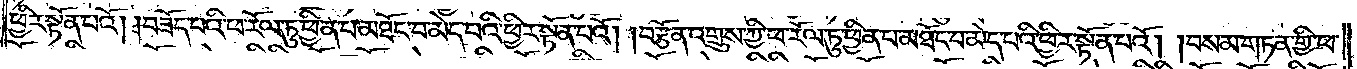ཕྱིར་སྟོན་པའོ། །བཟོད་པའི་ཕ་རོལ་ཏུ་ཕྱིན་པ་མཐོང་བ་མེད་པའི་ཕྱིར་སྟོན་པའོ། །བརྩོན་འགྲུས་ཀྱི་ཕ་རོལ་ཏུ་ཕྱིན་པ་མཐོང་བ་མེད་པའི་ཕྱིར་སྟོན་པའོ། །བསམ་གཏན་གྱི་ཕ་
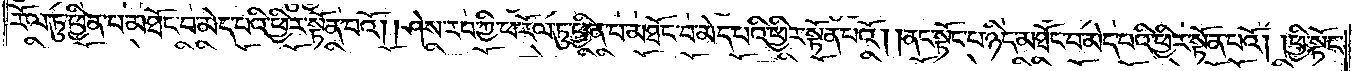རོལ་ཏུ་ཕྱིན་པ་མཐོང་བ་མེད་པའི་ཕྱིར་སྟོན་པའོ། །ཤེས་རབ་ཀྱི་ཕ་རོལ་ཏུ་ཕྱིན་པ་མཐོང་བ་མེད་པའི་ཕྱིར་སྟོན་པའོ། །ནང་སྟོང་པ་ཉིད་མཐོང་བ་མེད་པའི་ཕྱིར་སྟོན་པའོ། །ཕྱི་སྟོང་
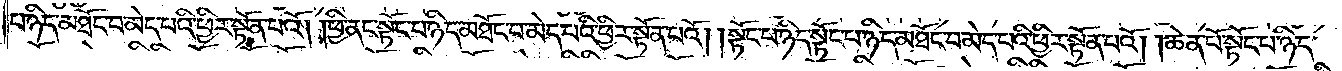པ་ཉིད་མཐོང་བ་མེད་པའི་ཕྱིར་སྟོན་པའོ། །ཕྱི་ནང་སྟོང་པ་ཉིད་མཐོང་བ་མེད་པའི་ཕྱིར་སྟོན་པའོ། །སྟོང་པ་ཉིད་སྟོང་པ་ཉིད་མཐོང་བ་མེད་པའི་ཕྱིར་སྟོན་པའོ། །ཆེན་པོ་སྟོང་པ་ཉིད་
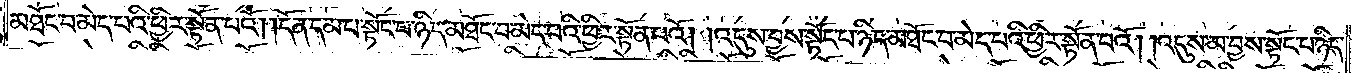མཐོང་བ་མེད་པའི་ཕྱིར་སྟོན་པའོ། །དོན་དམ་པ་སྟོང་པ་ཉིད་མཐོང་བ་མེད་པའི་ཕྱིར་སྟོན་པའོ། །འདུས་བྱས་སྟོང་པ་ཉིད་མཐོང་བ་མེད་པའི་ཕྱིར་སྟོན་པའོ། །འདུས་མ་བྱས་སྟོང་པ་ཉིད་
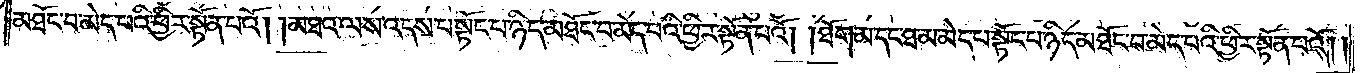མཐོང་བ་མེད་པའི་ཕྱིར་སྟོན་པའོ། །མཐའ་ལས་འདས་པ་སྟོང་པ་ཉིད་མཐོང་བ་མེད་པའི་ཕྱིར་སྟོན་པའོ། །ཐོག་མ་དང་ཐ་མ་མེད་པ་སྟོང་པ་ཉིད་མཐོང་བ་མེད་པའི་ཕྱིར་སྟོན་པའོ། །
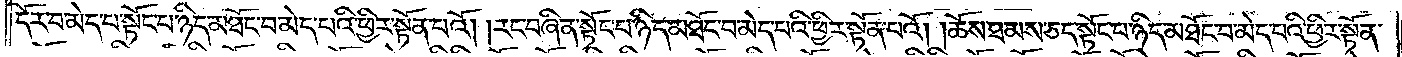དོར་བ་མེད་པ་སྟོང་པ་ཉིད་མཐོང་བ་མེད་པའི་ཕྱིར་སྟོན་པའོ། །རང་བཞིན་སྟོང་པ་ཉིད་མཐོང་བ་མེད་པའི་ཕྱིར་སྟོན་པའོ། །ཆོས་ཐམས་ཅད་སྟོང་པ་ཉིད་མཐོང་བ་མེད་པའི་ཕྱིར་སྟོན་
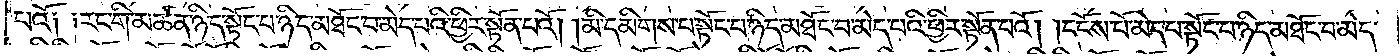པའོ༑ ༑རང་གི་མཚན་ཉིད་སྟོང་པ་ཉིད་མཐོང་བ་མེད་པའི་ཕྱིར་སྟོན་པའོ། །མི་དམིགས་པ་སྟོང་པ་ཉིད་མཐོང་བ་མེད་པའི་ཕྱིར་སྟོན་པའོ། །དངོས་པོ་མེད་པ་སྟོང་པ་ཉིད་མཐོང་བ་མེད་
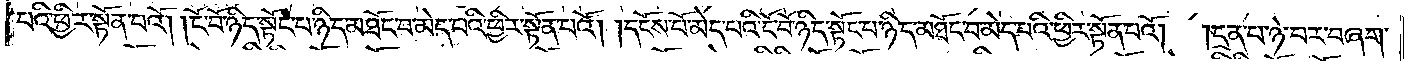པའི་ཕྱིར་སྟོན་པའོ། །ངོ་བོ་ཉིད་སྟོང་པ་ཉིད་མཐོང་བ་མེད་པའི་ཕྱིར་སྟོན་པའོ། །དངོས་པོ་མེད་པའི་ངོ་བོ་ཉིད་སྟོང་པ་ཉིད་མཐོང་བ་མེད་པའི་ཕྱིར་སྟོན་པའོ། །དྲན་པ་ཉེ་བར་བཞག་
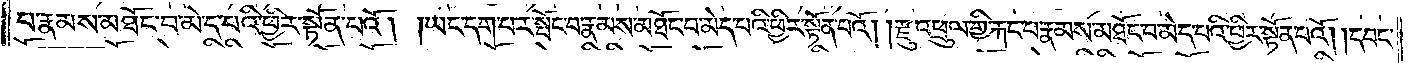པ་རྣམས་མཐོང་བ་མེད་པའི་ཕྱིར་སྟོན་པའོ། །ཡང་དག་པར་སྤོང་བ་རྣམས་མཐོང་བ་མེད་པའི་ཕྱིར་སྟོན་པའོ། །རྫུ་འཕྲུལ་གྱི་རྐང་པ་རྣམས་མཐོང་བ་མེད་པའི་ཕྱིར་སྟོན་པའོ། །དབང་
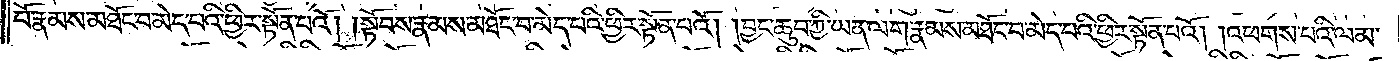པོ་རྣམས་མཐོང་བ་མེད་པའི་ཕྱིར་སྟོན་པའོ། །སྟོབས་རྣམས་མཐོང་བ་མེད་པའི་ཕྱིར་སྟོན་པའོ། །བྱང་ཆུབ་ཀྱི་ཡན་ལག་རྣམས་མཐོང་བ་མེད་པའི་ཕྱིར་སྟོན་པའོ། །འཕགས་པའི་ལམ་
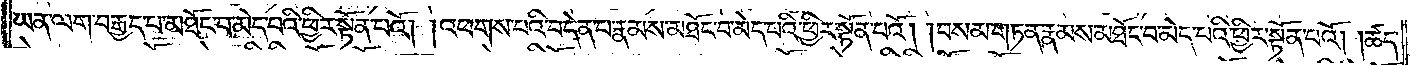ཡན་ལག་བརྒྱད་པ་མཐོང་བ་མེད་པའི་ཕྱིར་སྟོན་པའོ། །འཕགས་པའི་བདེན་པ་རྣམས་མཐོང་བ་མེད་པའི་ཕྱིར་སྟོན་པའོ། །བསམ་གཏན་རྣམས་མཐོང་བ་མེད་པའི་ཕྱིར་སྟོན་པའོ། །ཚད་
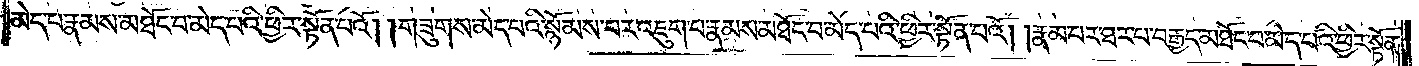མེད་པ་རྣམས་མཐོང་བ་མེད་པའི་ཕྱིར་སྟོན་པའོ། །གཟུགས་མེད་པའི་སྙོམས་པར་འཇུག་པ་རྣམས་མཐོང་བ་མེད་པའི་ཕྱིར་སྟོན་པའོ། །རྣམ་པར་ཐར་པ་བརྒྱད་མཐོང་བ་མེད་པའི་ཕྱིར་སྟོན་
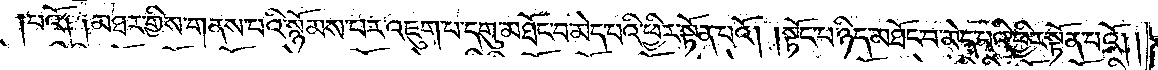པའོ༑ ༑མཐར་གྱིས་གནས་པའི་སྙོམས་པར་འཇུག་པ་དགུ་མཐོང་བ་མེད་པའི་ཕྱིར་སྟོན་པའོ། །སྟོང་པ་ཉིད་མཐོང་བ་མེད་པའི་ཕྱིར་སྟོན་པའོ། །
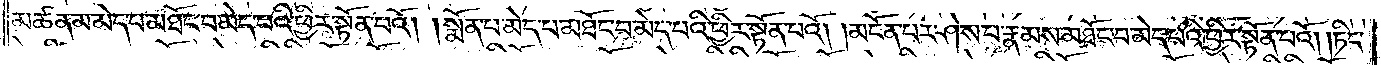མཚན་མ་མེད་པ་མཐོང་བ་མེད་པའི་ཕྱིར་སྟོན་པའོ། །སྨོན་པ་མེད་པ་མཐོང་བ་མེད་པའི་ཕྱིར་སྟོན་པའོ། །མངོན་པར་ཤེས་པ་རྣམས་མཐོང་བ་མེད་པའི་ཕྱིར་སྟོན་པའོ། །ཏིང་
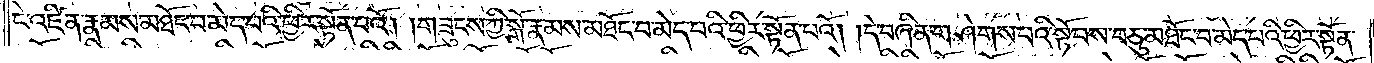ངེ་འཛིན་རྣམས་མཐོང་བ་མེད་པའི་ཕྱིར་སྟོན་པའོ། །གཟུངས་ཀྱི་སྒོ་རྣམས་མཐོང་བ་མེད་པའི་ཕྱིར་སྟོན་པའོ། །དེ་བཞིན་གཤེགས་པའི་སྟོབས་བཅུ་མཐོང་བ་མེད་པའི་ཕྱིར་སྟོན་
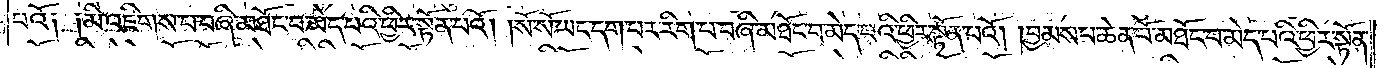པའོ༑ ༑མི་འཇིགས་པ་བཞི་མཐོང་བ་མེད་པའི་ཕྱིར་སྟོན་པའོ། །སོ་སོ་ཡང་དག་པར་རིག་པ་བཞི་མཐོང་བ་མེད་པའི་ཕྱིར་སྟོན་པའོ། བྱམས་པ་ཆེན་པོ་མཐོང་བ་མེད་པའི་ཕྱིར་སྟོན་
